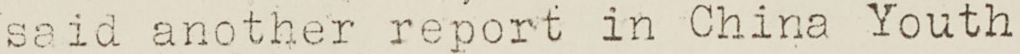said another report in China Youth
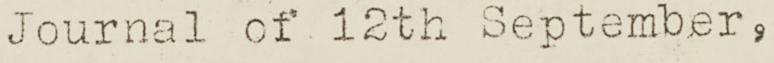Journal of 12th September,
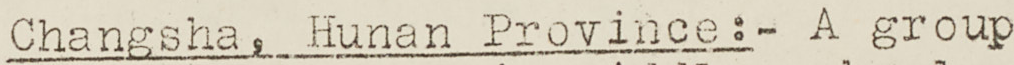Changsha, Hunan Province - A group
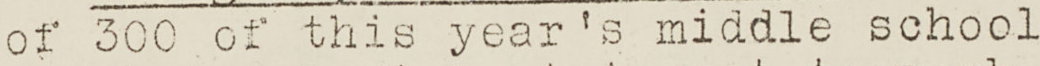of 300 of this years middle school
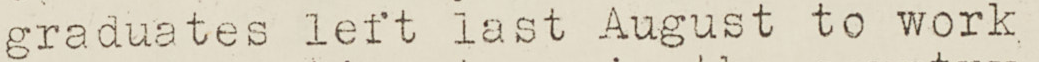graduates left last August to work
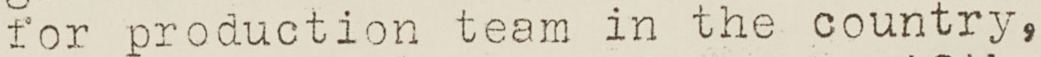for production team in the country,
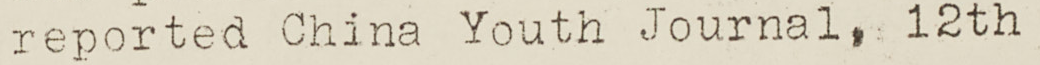reported China Youth Journal, 12th
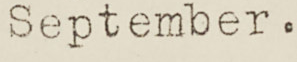September.
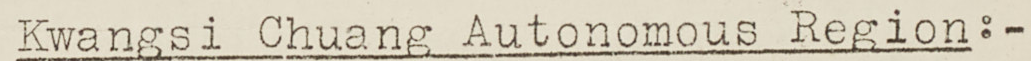Kwangsi Chuang Autonomous Region:-
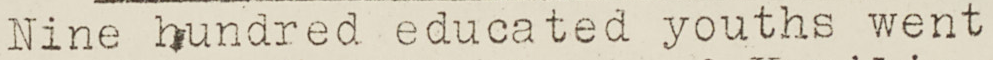Nine hundred educated youths went
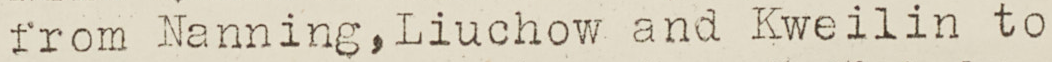from Nanning, Liuchow and Kweilin to
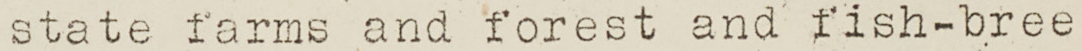state farms and forest and fish-bree
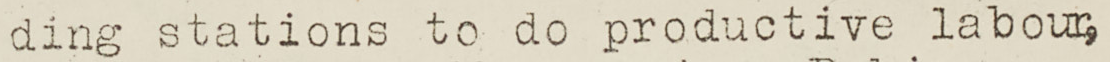ding stations to do productive labour,
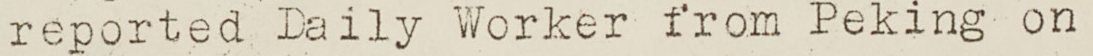reported Daily Worker from Peking on
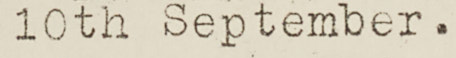10th September.
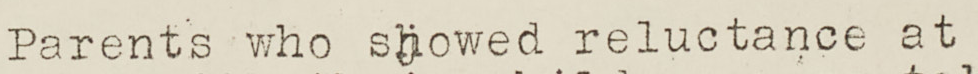Parents who showed reluctance at
